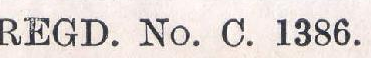REGD. No. C. 1386.
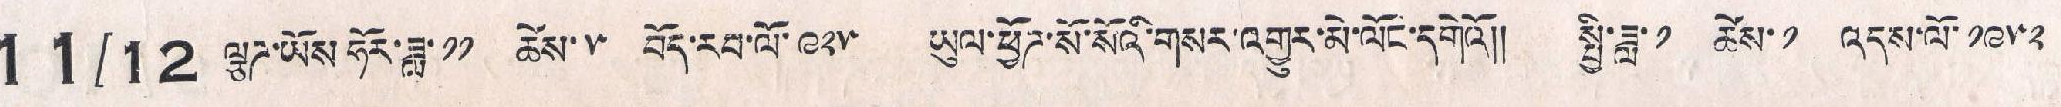11/12 ལྕཊ་ཡོས་ཧོར་ཟླ་ ༡༡ ཚེས་ ༥ བོད་རབ་ལོ་ ༩༢༥ ཡུལ་ཕྱོཊ་སོ་སོའི་གསར་འགྱུར་མེ་ལོང་དགེའོ།། སྤྱི་ཟླ་ ༡ ཚེས་ ༡ འདས་ལོ་ ༡༩༥༢
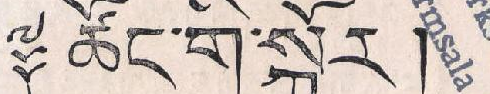༈ ཚོང་གི་སྐོར།
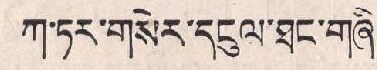ཀ་ཏར་གསེར་དངུལ་ཐང་གཞི་
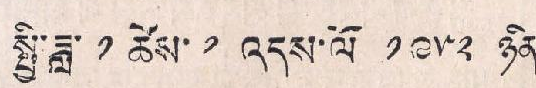སྤྱི་ཟླ་ ༡ ཚེས་ ༡ འདས་ལོ་ ༡༩༥༢ ཉིན་
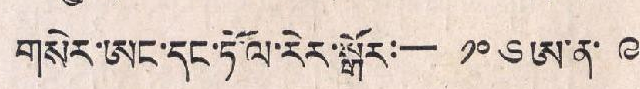གསེར་ཨང་དང་ཏོ་ལ་རེར་སྒོར:— ༡༠༦ ཨ་ན་ ༩
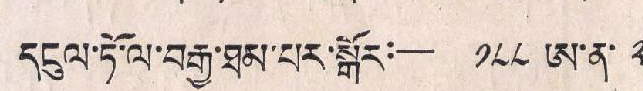དངུལ་ཏོ་ལ་བརྒྱ་ཐམ་པར་སྒོར་:— ༡༨༨ ཨ་ན་ ༢
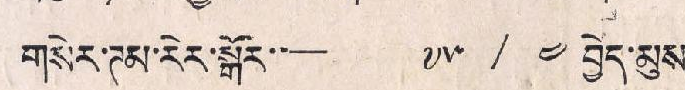གསེར་ཊམ་རེར་སྒོར་:— ༧༥ / ༤ བྱེད་མུས།
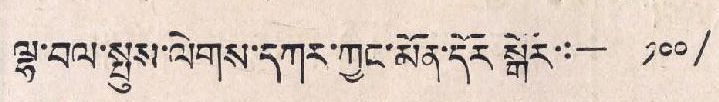ལྷ་བལ་སྤུས་ལེགས་དཀར་ཀྱང་མོན་དོར་སྒེར་:— ༡༠༠/
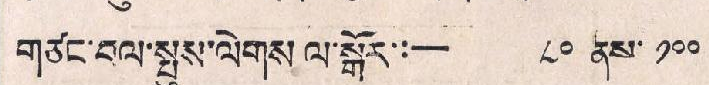གཙང་བལ་སྤུས་ལེགས་ལ་སྒོར:— ༨༠ ནས་ ༡༠༠
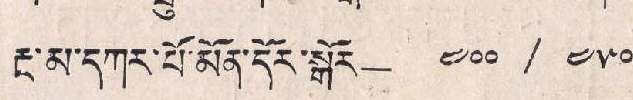རྔ་མ་དཀར་པོ་མོན་དོར་སྒོར་— ༤༠༠ / ༤༥༠
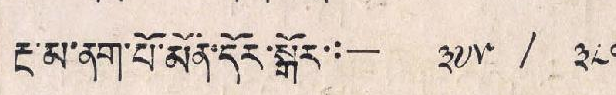རྔ་མ་་ནག་པོ་མོན་དོར་སྒོར་:— ༣༧༥ / ༣༨༠
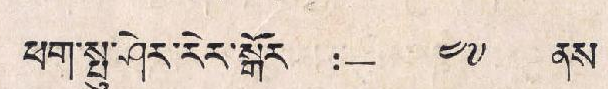ཕག་སྤུ་ཤེར་རེར་སྒོར་:— ༤༧  ནས
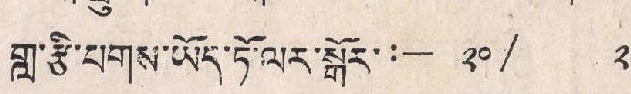གླ་རྩི་པགས་ཡོད་ཏོ་ལར་སྒོར་:— ༢༠ / ༢༡
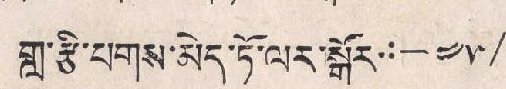གླ་རྩི་པགས་མེད་ཏོ་ལར་སྒོར་:— ༤༥/
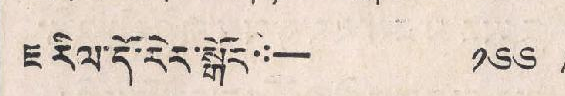ཇ་རིལ་དོ་རེར་སྒོང་:— ༡༦༦ /
